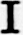I
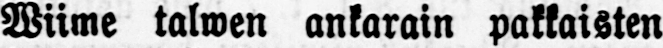Wiime talwen ankarain pakkaisten
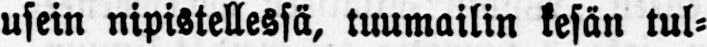usein nipistellessä, tuumailin kesän tul-
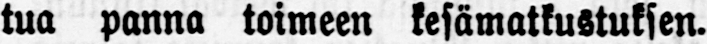tua panna toimeen kesämatkustuksen.
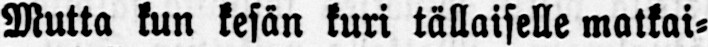Mutta kun kesän kuri tällaiselle matkai-
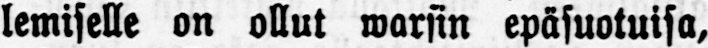lemiselle on ollut warsin epäsuotuisa,
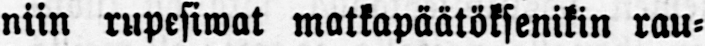niin rupesiwat matkapäätöksenikin rau-
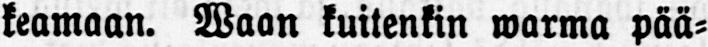keamaan. Waan kuitenkin warma pää-
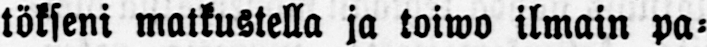tökseni matkustella ja toiwo ilmain pa-
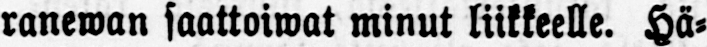raneman saattoiwat minut liikkeelle. Hä-
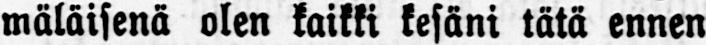mäläisenä olen kaikki kesäni tätä ennen
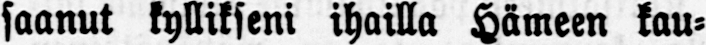saanut kyllikseni ihailla Hämeen kau-
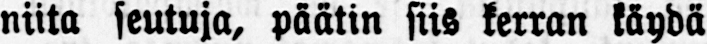niita seutuja, päätin siis kerran käydä
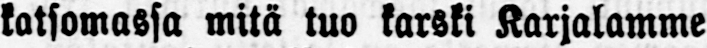katsomassa mitä tuo karski Karjalamme
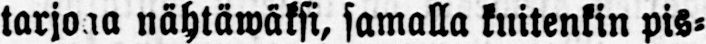tarjoaa nähtäwäksi, samalla kuitenkin pis-
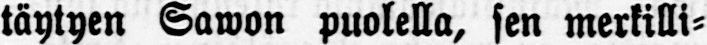täytyen Sawon puolella, sen merkilli -
